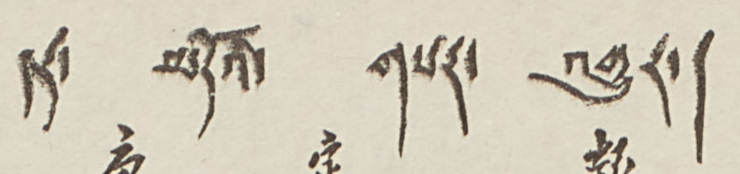དར་ མདོའི་ གསར་ འགྱུར།
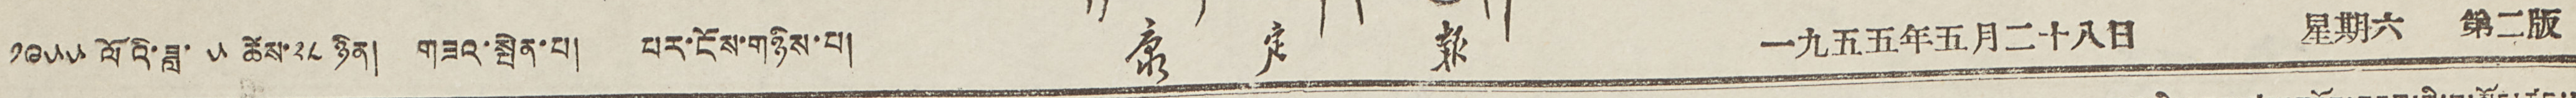༡༩༥༥ ལོའི་ཟླ་ ༥ ཚེས་ ༢༨ ཉིན། གཟའ་སྤེན་པ། པར་ངོས་གཉིས་པ། 康 定 報 一九五五年五月二十八日 星期六 第二版
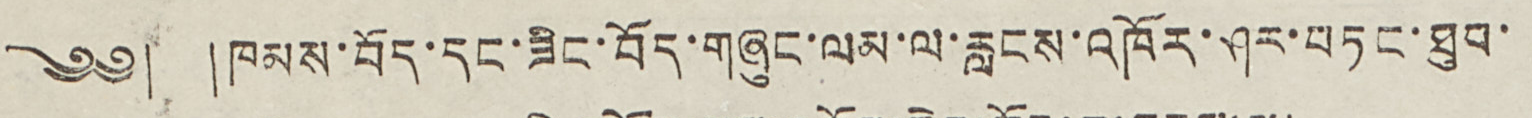༄༅། །ཁམས་བོད་དང་ཟིང་བོད་གཞུང་ལམ་ལ་རླངས་འཁོར་ཤར་བཏང་ཐུབ་
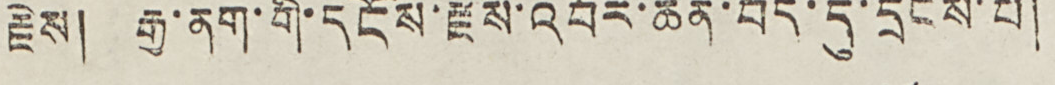རྗེས། རྒྱ་ནག་གི་དངོས་རྫས་འབོར་ཆེན་བོད་དུ་དྲངས་པ།
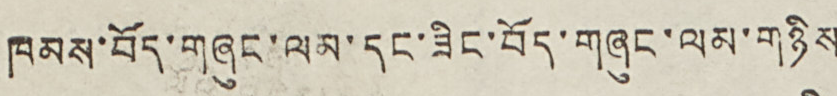ཁམས་བོད་གཞུང་ལམ་དང་ཟིང་བོད་གཞུང་ལམ་གཉིས
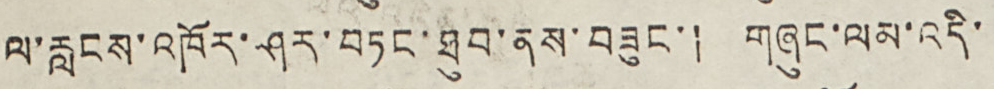ལ་རླངས་འཁོར་ཤར་བཏང་ཐུབ་ནས་བཟུང་། གཞུང་ལམ་འདི་
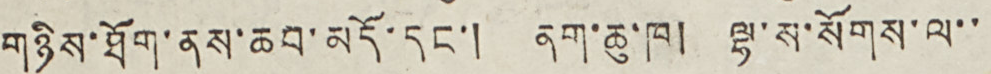གཉིས་ཐོག་ནས་ཆབ་མདོ་དང་། ནག་ཆུ་ཁ། ལྷ་ས་སོགས་ལ་་
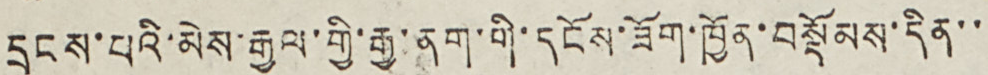དྲངས་པའི་མེས་རྒྱལ་གྱི་རྒྱ་ནག་གི་དངོས་ཟོག་ཁྱོན་བསྡོམས་དིན་་
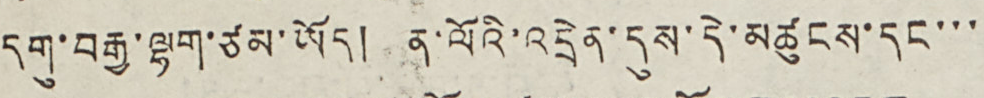དགུ་བརྒྱ་ལྷག་ཙམ་ཡོད། ན་ལོའི་འདྲེན་དུས་དེ་མཚུངས་དང་་་
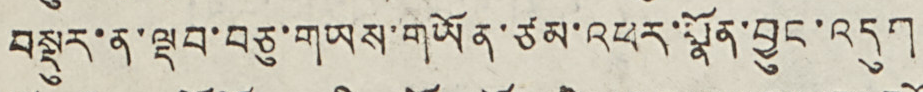བསྡུར་ན་ལྡབ་བཅུ་གཡས་གཡོན་ཙམ་འཕར་སྣོན་བྱུང་འདུག
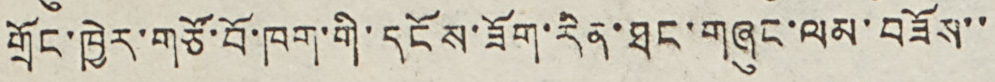གྲོང་ཁྱེར་གཙོ་བོ་ཁག་གི་དངོས་ཟོག་རིན་ཐང་གཞུང་ལམ་བཟོས་་
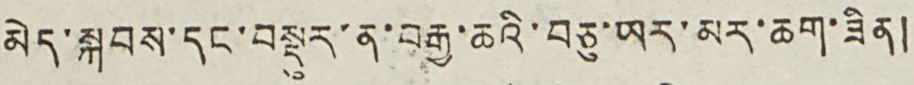མེད་སྐབས་དང་བསྡུར་ན་བརྒྱ་ཆའི་བཅུ་ཡར་མར་ཆག་ཟིན།
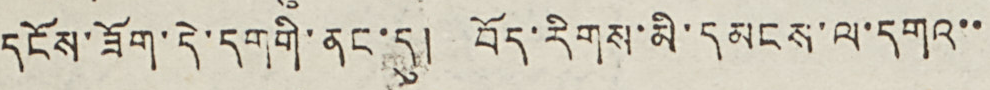དངོས་ཟོག་དེ་དག གི་ནང་དུ། བོད་རིགས་མི་དམངས་ལ་དགའ་་
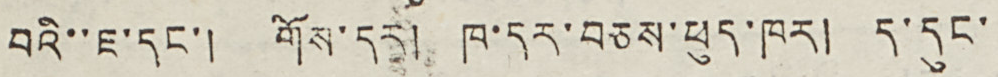བའི་་ཇ་དང་། གོས་དར། ཁ་དར་བཅས་ཕུད་ཁར། ད་དུང་
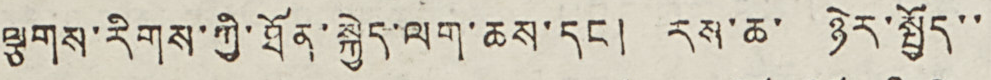ལྕགས་རིགས་ཀྱི་ཐོན་སྐྱེད་ལག་ཆས་དང ། རས་ཆ་ ཉེར་སྤྱོད་་
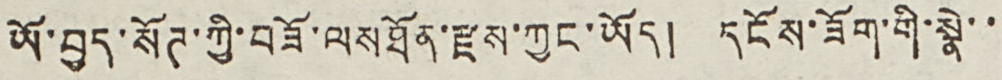ཡོ་བྱད་སོཊ་ཀྱི་བཟོ་ལས ཐོན་རྫས་ཀྱང་ཡོད། དངོས་ཟོག་གི་སྣེ་་
